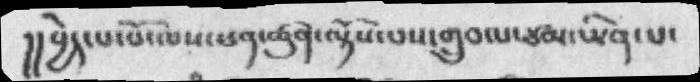།།བྱེད་པ་པོ་ལས་ཕན་ཚུན་ལྟོས་པས་གྲུབ་པ་ཙམ་ཡིན་པ་
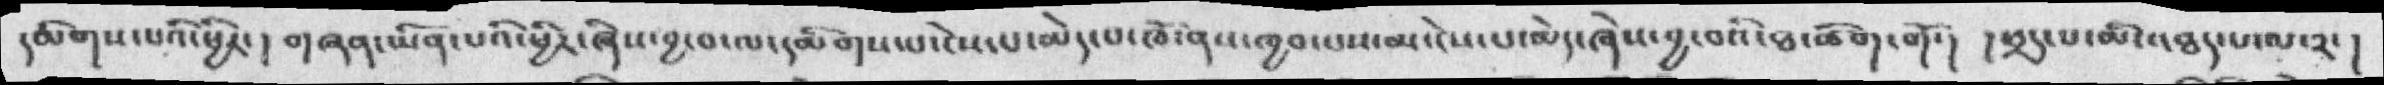དམིགས་པའི་ཕྱིར་།  གཞན་ཡིན་པའི་ཕྱིར་ཞེས་བྱ་བ་ལ་དམིགས་པ་ངེས་པ་མེད་པ་ཁོ་ནས་ཁྱབ་པས་མ་ངེས་པ་མེད་ཞེས་བྱ་བའི་ཐ་ཚིག་གོ་། །ཕྲད་པ་མི་འཐད་པ་ལ་༢་།
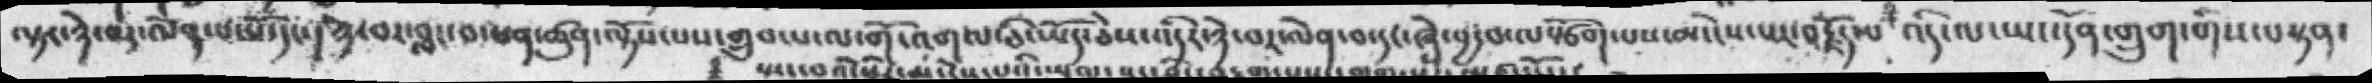ལྟར་ཉེ་བར་ལེན་པ་པོ་དང་།  ཉེ་བར་བླང་བ་ཕན་ཚུན་ལྟོས་པས་གྲུབ་པ་ལ་གོ་འགལ་ཅི་ཡོད་ཅེས་འདིར་ཉེ་བར་ལེན་བ་དང་ཞེས་བྱ་བ་ལསྩོག་པས་མ་ངེས་པར་བརྗོད་པ་  འདི་ལ་ཡང་དོན་གྲུག་གིས་བསྟན་
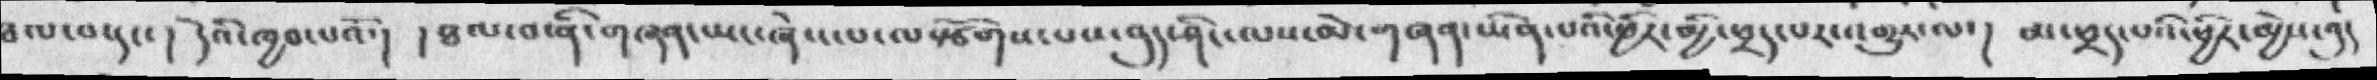ཐལ་བ་དང་། དེའི་ཁྱབ་པའོ་།  །ཐལ་བ་ནི་གཞན་ཡང་ཞེས་པ་ལསྩོགས་པས་བུད་ཤིང་ལས་མེ་གཞན་ཡིན་པའི་ཕྱིར་མྱི་ཕྲད་པར་འགྱུར་ལ་། མ་ཕྲད་པའི་ཕྱིར་མྱེས་བུད
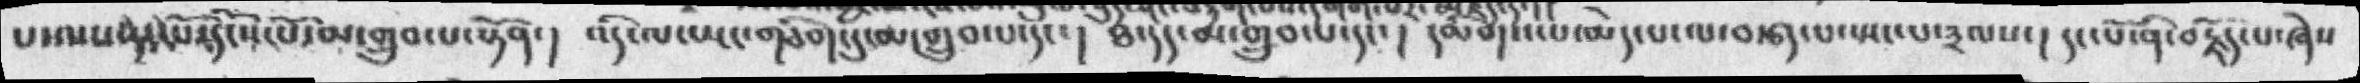པ་ལས་དང་པོ་དངོས་པོ་མ་གྲུབ་པ་སྟོན་།  འདི་ལ་ཡང་གཅིག་དུ་མ་གྲུབ་པ་དང་།  ཐ་དད་མ་གྲུབ་པ་དང་།   དམིགས་པ་མེད་པ་ལ་བརྩད་པ་སྤང་པ་༣ལས་།  དང་པོ་ནི་བརྗོད་པ་ཞེས
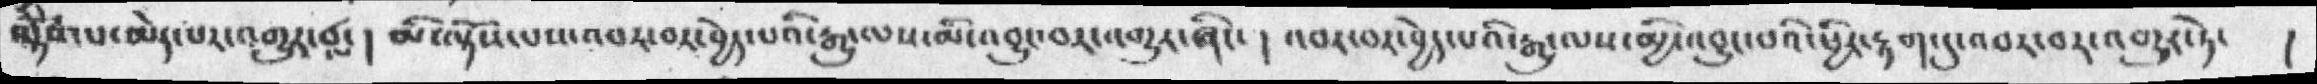ལྟོས་པ་མེད་འགྱུར་བ་དང་།  མི་ལྟོས་པས་འབར་བར་བྱེད་པའི་རྒྱུ་ལས་མི་འབྱུང་བར་འགྱུར་ཞིང་།  འབར་བར་བྱེད་པའི་རྒྱུ་ལས་མྱི་འབྱུང་བའི་ཕྱིར་རྟག་དུ་འབར་བར་འགྱུར་ཏེ་
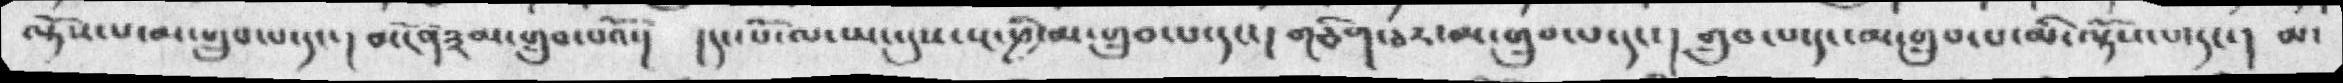ལྟོས་པ་མ་གྲུབ་པ་དང་ས྄མངོན༣མ་གྲུབ་པའོ་།  །དང་པོ་ལ་ཡང་དུས་སྔ་ཕྱི་མ་གྲུབ་པ་དང་། གཅིག་ཅར་མ་གྲུབ་པ་དང་། གྲུབ་པ་དང་མ་གྲུབ་པ་མི་ལྟོས་པ་དང་། མ་
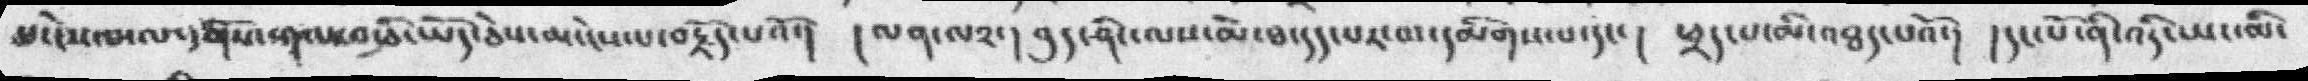མ་ངེས་པ་ལ་དགོས་གལ་བ་ཅི་ཡོད་ཅེས་མ་ངེས་པ་བརྗོད་པའོ་།  །ལན་ལ༢་།  བུད་ཤིང་ལས་མེ་ཐ་དད་པར་མ་དམིགས་པ་དང་།  ཕྲད་པ་མི་འཐད་པའོ་།  །དང་པོ་ནི་འདི་ཡང་མི་
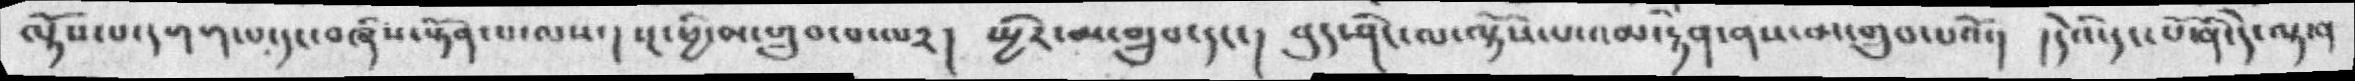ལྟོས་པ་དགག་པ་དང་བཞིས་སྟོན་པ་ལས་། སྔ་ཕྱི་མ་གྲུབ་པ་ལ༢།  སྤྱིར་མ་གྲུབ་དང་། བུད་ཤིང་ལ་ལྟོས་པ་འམ་རྟེན་ནས་མ་གྲུབ་པའོ་། །དེའི་དང་པོ་ནི་དེ་ལྟ་ན
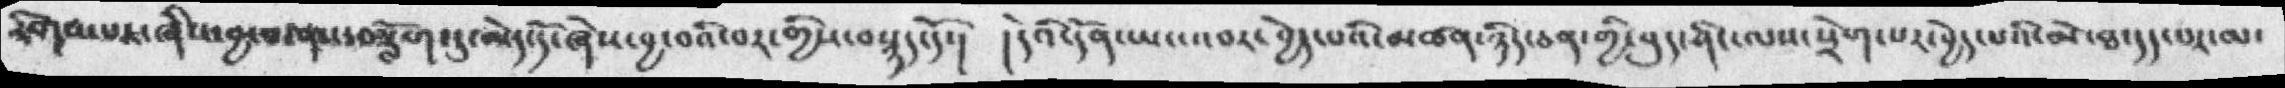རིགས་པར་ཞེས་བྱ་བ་ནས་བཟློག་དུ་མེད་དོ་ཞེས་བྱ་བའི་བར་གྱིས་བསྙད་དོ་།  །དེའི་དོན་ཡང་འབར་བྱེད་པའི་མཚན་ཉིད་ཅན་གྱི་བུད་ཤིང་ལས་སྲེག་པར་བྱེད་པའི་མེ་ཐ་དད་པར་མ་
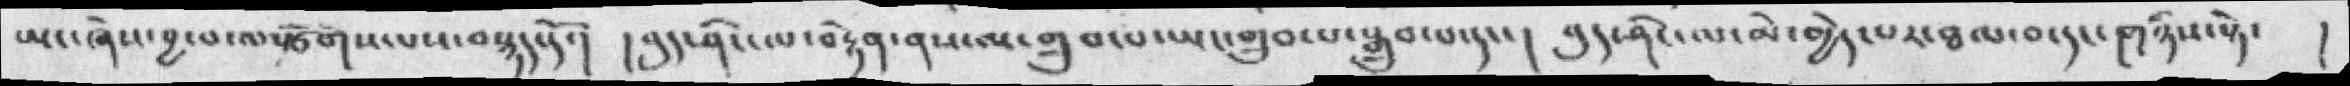ཡང་ཞེས་བྱ་བ་ལསྩོགས་པས་བསྙད་དོ་། བུད་ཤིང་ལ་བརྟེན་ནས་མ་གྲུབ་པ་ཡང་གྲུབ་པ་སྒྲུབ་པ་དང་། བུད་ཤིང་ལ་མེ་མྱེད་པར་ཐལ་བ་དང་གཉིས་སྟེ་  །
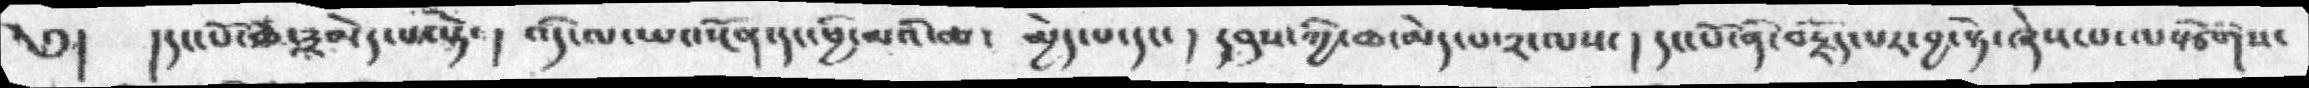༅།   །དང་པོ་ཆ་༣མེད་པ་སྟེ་།  འདི་ལ་ཡང་སྔོན་དང་ཕྱི་མའི་ཆ་  མྱེད་པ་དང་། དབུས་ཀྱི་ཆ་མེད་པ་༢་ལས་། དང་པོ་ནི་བརྗོད་པར་བྱ་སྟེ་ཞེས་པ་ལསྩོགས་
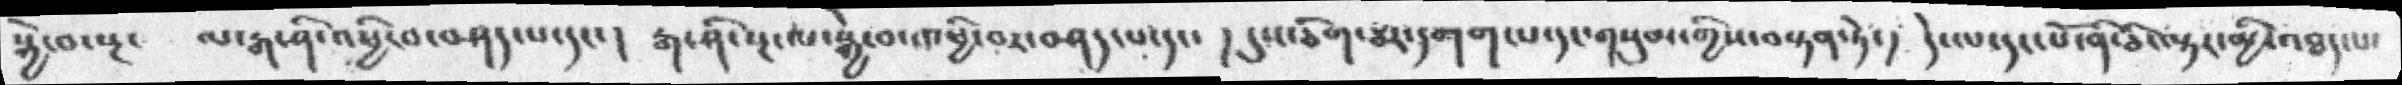སྐྱེ་བ་སྔ་   ལ་རྒ་ཤི་འཕྱི་བ་བཤད་པ་དང་།  རྒ་ཤི་སྔ་ལ་སྐྱེ་བ་བ་ཕྱི་བར་བཤད་པ་དང་། དུས་ཅིག་ཅར་དགག་པ་དང་གསུམ་གྱིས་བསྟན་ཏེ་། དེ་ལ་དང་པོ་ནི་ཅི་ལྟར་མྱི་འཐད་པ་
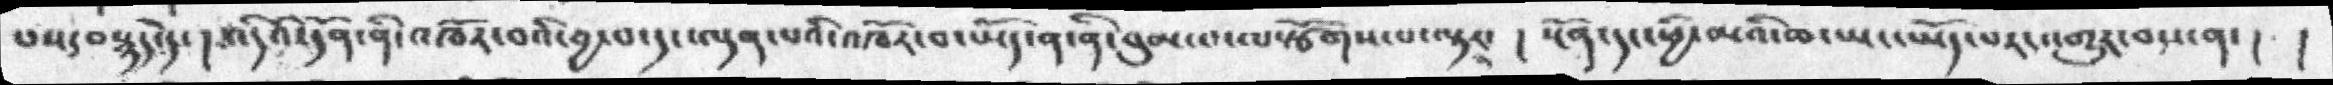པས་བསྙད་དེ་། འདིའི་དོན་ནི་འཁོར་བའི་བྱ་བ་དང་ལྡན་པའི་འཁོར་བ་ཡོད་ན་ནི་བུམ་པ་ལསྩོགས་པ་ལྟར་།  སྔོན་དང་ཕྱི་མའི་ཆ་ཡང་ཡོད་པར་འགྱུར་བས་ན་། །
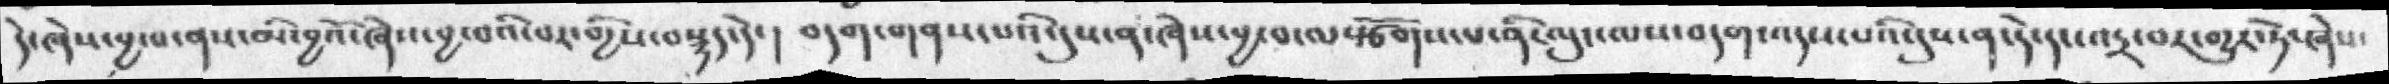དེ་ཞེས་བྱ་བ་ནས་མི་བྱའོ་ཞེས་བྱ་བའི་བར་གྱིས་བསྙད་དེ་།  བདག་གནས་པའི་དུས་ན་ཞེས་བྱ་བ་ལསྩོགས་པ་ནི་ལུང་ལས་བདག་འདས་པའི་དུས་ན་དེ་དང་འདྲ་བར་གྱུར་ཏེ་ཞེས་
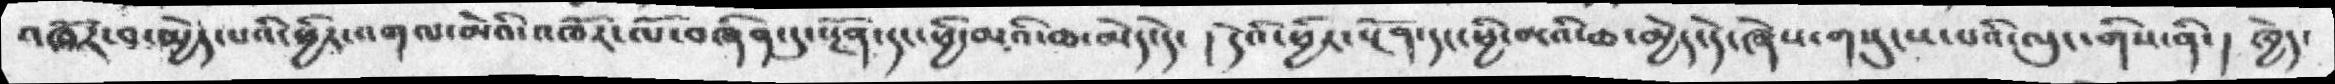འཁོར་བ་མྱེད་པའི་ཕྱིར་འགལ་མེའི་འཁོར་ལོ་བཞིན་དུ་སྔོན་དང་ཕྱི་མའི་ཆ་མེད་དེ་།  དེའི་ཕྱིར་སྔོན་དང་ཕྱི་མའི་ཆ་མྱེད་དེ་ཞེས་གསུངས་པའི་ལུང་གིས་ནི་། ཁྱེད་
